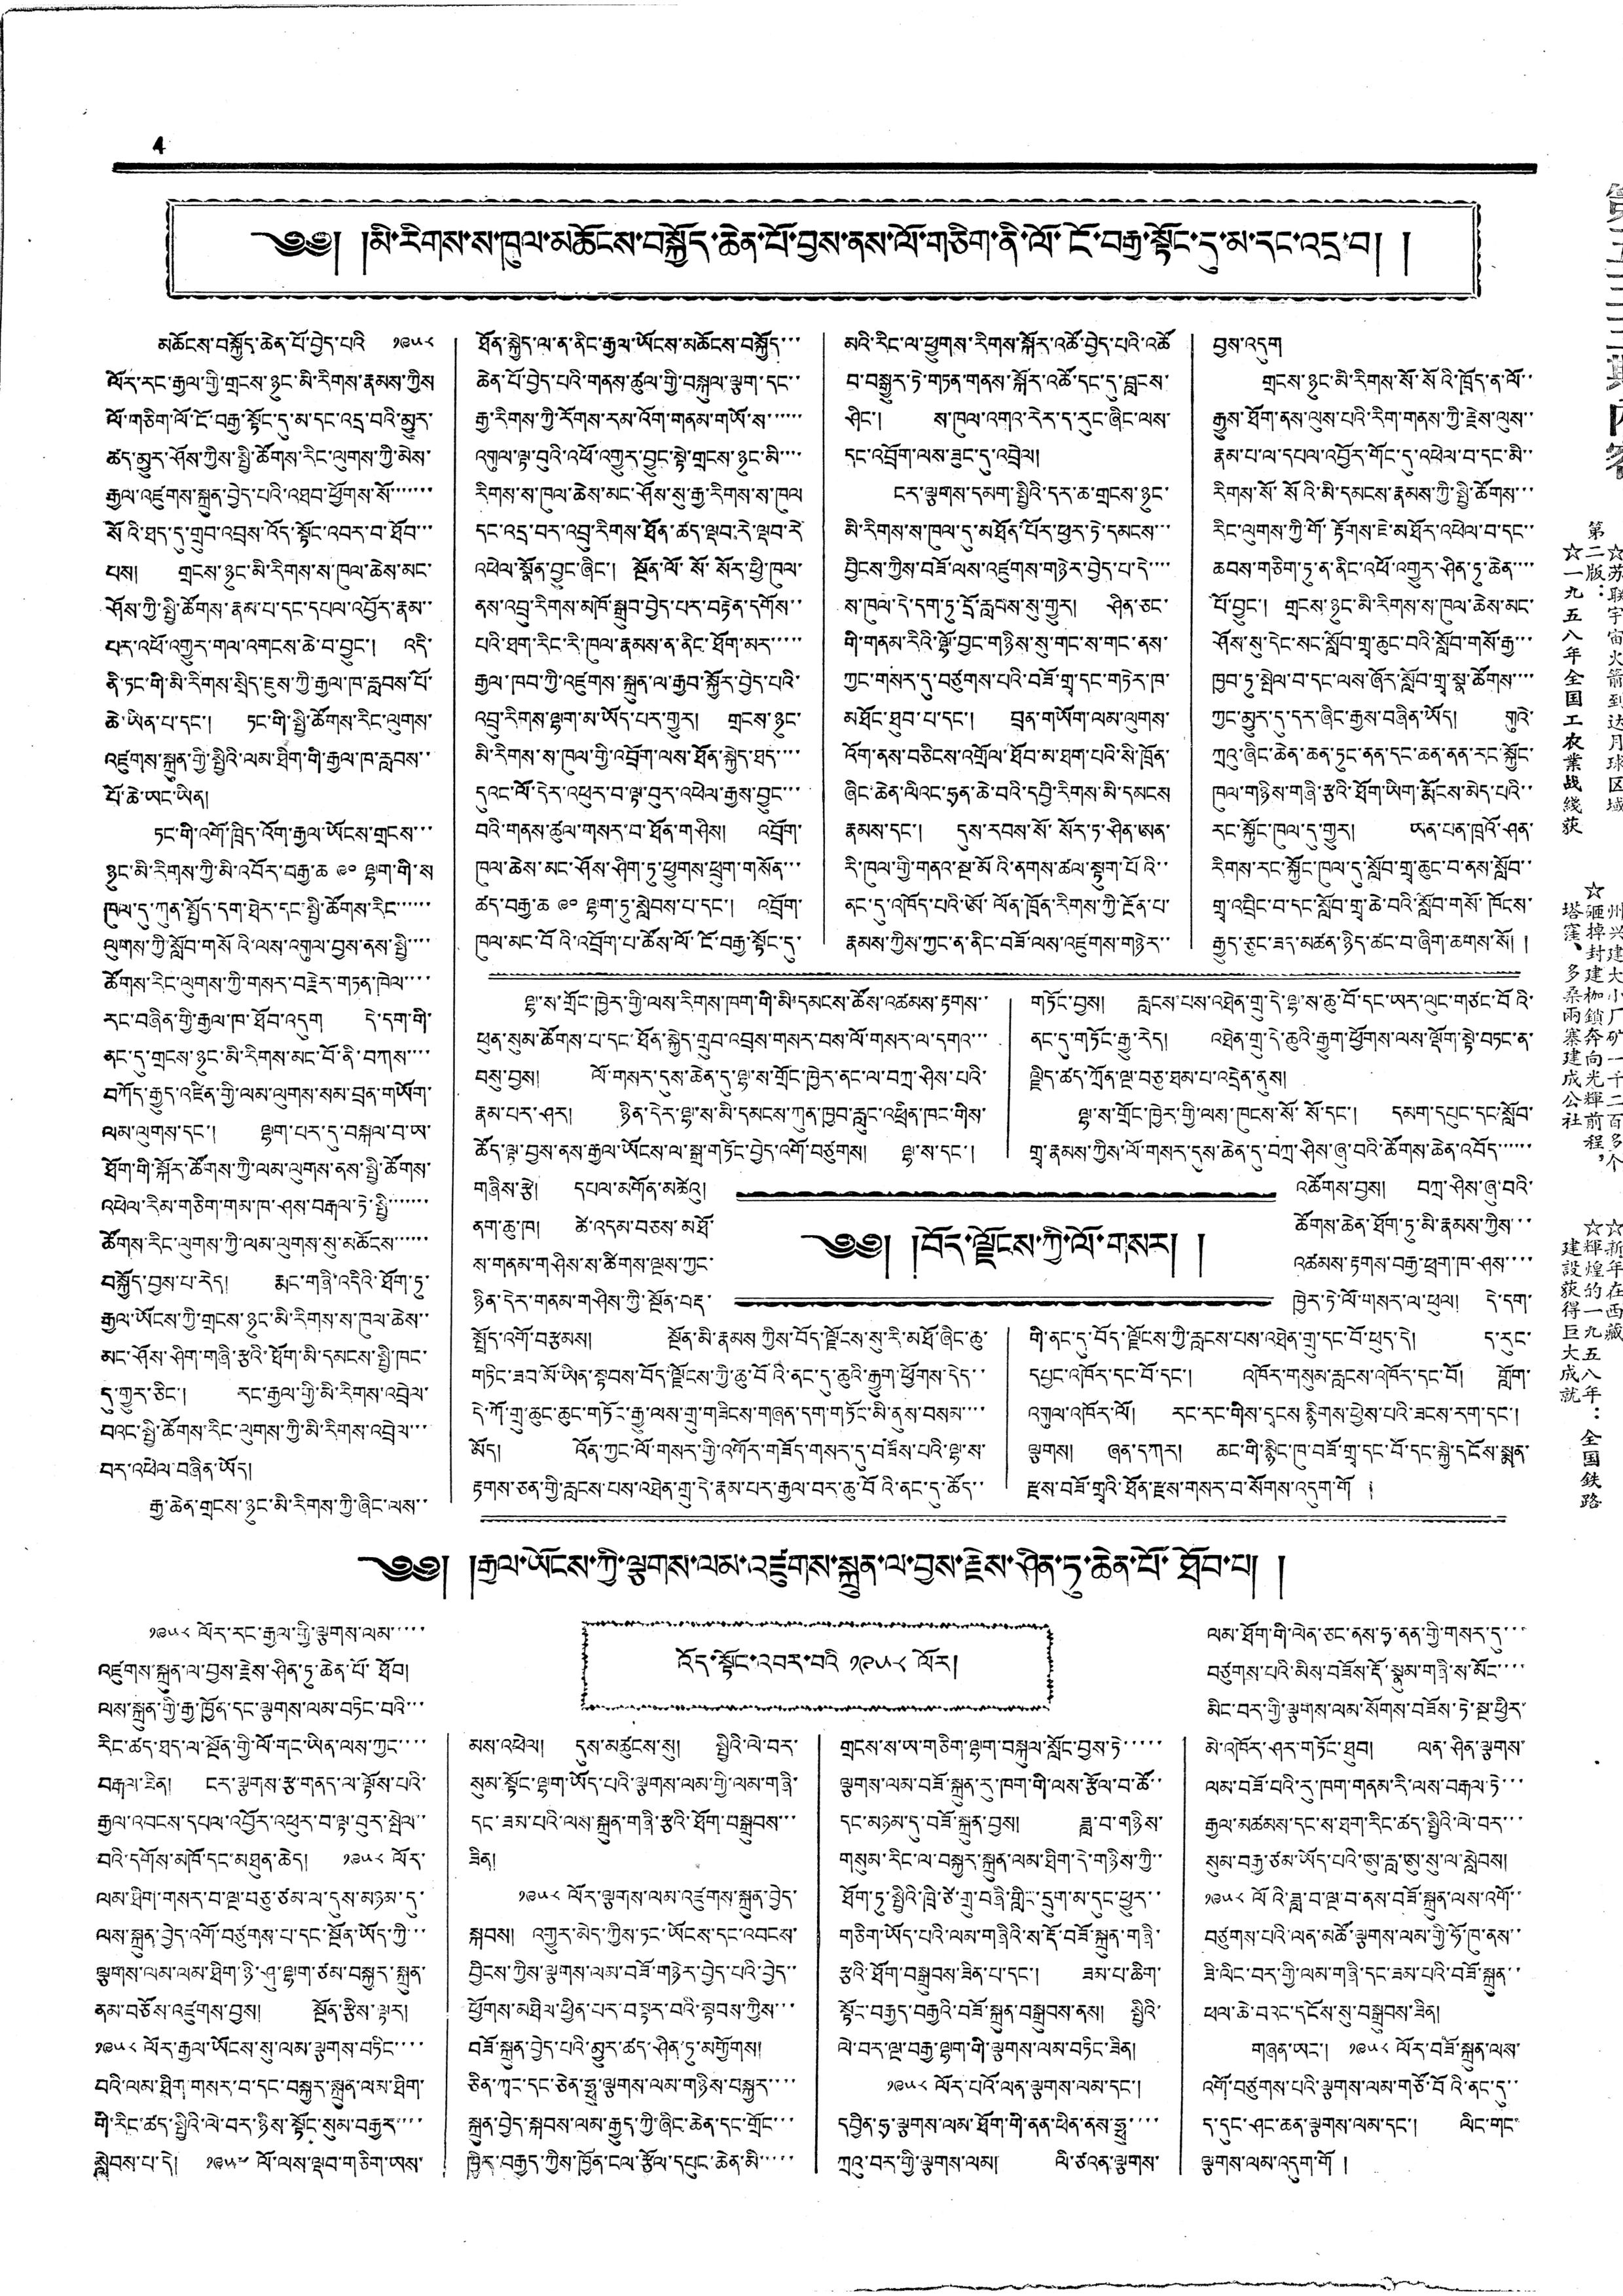4
༄༅། །མི་རིགས་ས་ཁུལ་མཆོངས་བསྐྱོད་ཆེན་པོ་བྱས་ནས་ལོ་གཅིག་ནི་ལོ་ངོ་བརྒྱ་སྟོང་དུ་མ་དང་འདྲ་བ། །
མཆོངས་བསྐྱོད་ཆེན་པོ་བྱེད་པའི ༡༩༥༨
ལོར་རང་རྒྱལ་གྱི་གྲངས་ཉུང་མི་རིགས་རྣམས་ཀྱིས
ལོ་གཅིག་ལོ་ངོ་བརྒྱ་སྟོང་དུ་མ་དང་འདྲ་བའི་མྱུར་
ཚད་མྱུར་ཤོས་ཀྱིས་སྤྱི་ཚོགས་རིང་ལུགས་ཀྱི་མེས་
རྒྱལ་འཛུགས་སྐྲུན་བྱེད་པའི་འཐབ་ཕྱོགས་སོ་་་་་་་
སོའི་ཐད་དུ་གྲུབ་འབྲས་འོད་སྟོང་འབར་བ་ཐོབ་་་
པས། གྲངས་ཉུང་མི་རིགས་ས་ཁུལ་ཆེས་མང་
ཤོས་ཀྱི་སྤྱི་ཚོགས་རྣམ་པ་དང་དཔལ་འབྱོར་རྣམ་་
པར་འཕོ་འགྱུར་གལ་འགངས་ཆེ་བ་བྱུང་། འདི་
ནི་ཏང་གི་མི་རིགས་སྲིད་ཇུས་ཀྱི་རྒྱལ་ཁ་རླབས་པོ་
ཆེ་ཡིན་པ་དང་། ཏང་གི་སྤྱི་ཚོགས་རིང་ལུགས་
འཛུགས་སྐྲུན་གྱི་སྤྱིའི་ལམ་ཐིག་གི་རྒྱལ་ཁ་རླབས་་
པོ་ཆེ་ཡང་ཡིན།
ཏང་གི་འགོ་ཁྲིད་འོག་རྒྱལ་ཡོངས་གྲངས་་་
ཉུང་མི་རིགས་ཀྱི་མི་འབོར་བརྒྱ་ཆ ༩༠ ལྷག་གི་ས
ཁུལ་དུ་ཀུན་སྤྱོད་དག་ཐེར་དང་སྤྱི་ཚོགས་རིང་་་་་་
ལུགས་ཀྱི་སློབ་གསོའི་ལས་འགུལ་བྱས་ནས་སྤྱི་་་་
ཚོགས་རིང་ལུགས་ཀྱི་གསར་བརྗེར་གཏན་ཁེལ་་་་
རང་བཞིན་གྱི་རྒྱལ་ཁ་ཐོབ་འདུག དེ་དག་གི་
ནང་དུ་གྲངས་ཉུང་མི་རིགས་མང་བོ་ནི་བཀས་་་་
བཀོད་རྒྱུད་འཛིན་གྱི་ལམ་ལུགས་སམ་བྲན་གཡོག་
ལམ་ལུགས་དང་། ལྷག་པར་དུ་བསྐལ་བ་ཡ་
ཐོག་གི་སྐོར་ཚོགས་ཀྱི་ལམ་ལུགས་ནས་སྤྱི་ཚོགས་
འཕེལ་རིམ་གཅིག་གམ་ཁ་ཤས་བརྒལ་ཏེ་སྤྱི་་་་་་་
ཚོགས་རིང་ལུགས་ཀྱི་ལམ་ལུགས་སུ་མཆོངས་་་་་་
བསྐྱོད་བྱས་པ་རེད། རྨང་གཞི་འདིའི་ཐོག་ཏུ་
རྒྱལ་ཡོངས་ཀྱི་གྲངས་ཉུང་མི་རིགས་ས་ཁུལ་ཆེས་་
མང་ཤོས་ཤིག་གཞི་རྩའི་ཐོག་མི་དམངས་སྤྱི་ཁང་
དུ་གྱུར་ཅིང་། རང་རྒྱལ་གྱི་མི་རིགས་འབྲེལ་
བའང་སྤྱི་ཚོགས་རིང་ལུགས་ཀྱི་མི་རིགས་འབྲེལ་་་
བར་འཕེལ་བཞིན་ཡོད།
རྒྱ་ཆེན་གྲགས་ཉུང་མི་རིགས་ཀྱི་ཞིང་ལས་་
ཐོན་སྐྱེད་ལ་ན་ནིང་རྒྱལ་ཡོངས་མཆོངས་བསྐྱོད་་་
ཆེན་པོ་བྱེད་པའི་གནས་ཚུལ་གྱི་བསྐུལ་ལྕག་དང་་
རྒྱ་རིགས་ཀྱི་རོགས་རམ་འོག་གནམ་གཡོ་ས་་་་་་
འགུལ་ལྟ་བུའི་འཕོ་འགྱུར་བྱུང་སྟེ་གྲངས་ཉུང་མི་་་་
རིགས་ས་ཁུལ་ཆེས་མང་ཤོས་སུ་རྒྱ་རིགས་ས་ཁུལ
དང་འདྲ་བར་འབྲུ་རིགས་ཐོན་ཚད་ལྡབ་རེ་ལྡབ་རེ
འཕེལ་སྣོན་བྱུང་ཞིང་། སྔོན་ལོ་སོ་སོར་ཕྱི་ཁུལ་
ནས་འབྲུ་རིགས་མཁོ་སྒྲུབ་བྱེད་པར་བརྟེན་དགོས་་
པའི་ཐག་རིང་རི་ཁུལ་རྣམས་ན་ནིང་ཐོག་མར་་་་་
རྒྱལ་ཁབ་ཀྱི་འཛུགས་སྐྲུན་ལ་རྒྱབ་སྐྱོར་བྱེད་པའི་
འབྲུ་རིགས་ལྷག་མ་ཡོད་པར་གྱུར། གྲངས་ཉུང་
མི་རིགས་ས་ཁུལ་གྱི་འབྲོག་ལས་ཐོན་སྐྱེད་ཐད་་་་
དུའང་ལོ་དེར་འཕུར་བ་ལྟ་བུར་འཕེལ་རྒྱས་བྱུང་་་
བའི་གནས་ཚུལ་གསར་བ་ཐོན་གཤིས། འབྲོག་
ཁུལ་ཆེས་མང་ཤོས་ཤིག་ཏུ་ཕྱུགས་ཕྲུག་གསོན་་་
ཚད་བརྒྱ་ཆ ༩༠ ལྷག་ཏུ་སླེབས་པ་དང་། འབྲོག་
ཁུལ་མང་བོའི་འབྲོག་པ་ཚོས་ལོ་ངོ་བརྒྱ་སྟོང་དུ་
མའི་རིང་ལ་ཕྱུགས་རིགས་སྐོར་འཚོ་བྱེད་པའི་འཚོ
བ་བསྒྱུར་ཏེ་གཏན་གནས་སྐོར་འཚོ་དང་དུ་བླངས་
ཤིང་། ས་ཁུལ་འགའ་རེར་ད་རུང་ཞིང་ལས་
དང་འབྲོག་ལས་ཟུང་དུ་འབྲེལ།
ངར་ལྕགས་དམག་སྤྱིའི་དར་ཆ་གྲངས་ཉུང་
མི་རིགས་ས་ཁུལ་དུ་མཐོན་པོར་ཕྱར་ཏེ་དམངས་་་
བྱིངས་ཀྱིས་བཟོ་ལས་འཛུགས་གཉེར་བྱེད་པ་དེ་་་་
ས་ཁུལ་དེ་དག་ཏུ་དྲོ་རླབས་སུ་གྱུར། ཤིན་ཅང་
གི་གནམ་རིའི་ལྷོ་བྱང་གཉིས་སུ་གང་ས་གང་ནས་
ཀྱང་གསར་དུ་བཙུགས་པའི་བཟོ་གྲྭ་དང་གཏེར་ཁ་
མཐོང་ཐུབ་པ་དང་། བྲན་གཡོག་ལམ་ལུགས་
འོག་ནས་བཅིངས་འགྲོལ་ཐོབ་མ་ཐག་པའི་སི་ཁྲོན་
ཞིང་ཆེན་ལིའང་ཧྲན་ཆེ་བའི་དབྱི་རིགས་མི་དམངས
རྣམས་དང་། དུས་རབས་སོ་སོར་ཏ་ཤིན་ཨན་
རི་ཁུལ་གྱི་གནའ་སྔ་མོའི་ནགས་ཚལ་སྟུག་པོའི་་
ནང་དུ་འཁོད་པའི་ཨོ་ལོན་ཁྲོན་རིགས་ཀྱི་རྔོན་པ་
རྣམས་ཀྱིས་ཀྱང་ན་ནིང་བཟོ་ལས་འཛུགས་གཉེར་་
བྱས་འདུག
གྲངས་ཉུང་མི་རིགས་སོ་སོའི་ཁྲོད་ན་ལོ་་
རྒྱུས་ཐོག་ནས་ལུས་པའི་རིག་གནས་ཀྱི་རྗེས་ལུས་་
རྣམ་པ་ལ་དཔལ་འབྱོར་གོང་དུ་འཕེལ་བ་དང་མི་་
རིགས་སོ་སོའི་མི་དམངས་རྣམས་ཀྱི་སྤྱི་ཚོགས་་་
རིང་ལུགས་ཀྱི་གོ་རྟོགས་ཇེ་མཐོར་འཕེལ་བ་དང་་
ཆབས་གཅིག་ཏུ་ན་ནིང་འཕོ་འགྱུར་ཤིན་ཏུ་ཆེན་་་་
པོ་བྱུང་། གྲངས་ཉུང་མི་རིགས་ས་ཁུལ་ཆེས་མང་
ཤོས་སུ་དེང་སང་སློབ་གྲྭ་ཆུང་བའི་སློབ་གསོ་རྒྱ་་་
ཁྱབ་ཏུ་སྤེལ་བ་དང་ལས་ཞོར་སློབ་གྲྭ་སྣ་ཚོགས་་་་
ཀྱང་མྱུར་དུ་དར་ཞིང་རྒྱས་བཞིན་ཡོད། གུའེ་
ཀྲའུ་ཞིང་ཆེན་ཆན་ཏུང་ནན་དང་ཆན་ནན་རང་སྐྱོང་
ཁུལ་གཉིས་གཞི་རྩའི་ཐོག་ཡིག་རྨོངས་མེད་པའི་་
རང་སྐྱོང་ཁུལ་དུ་གྱུར། ཡན་པན་ཁྲའོ་ཤན་
རིགས་རང་སྐྱོང་ཁུལ་དུ་སློབ་གྲྭ་ཆུང་བ་ནས་སློབ་་
གྲྭ་འབྲིང་བ་དང་སློབ་གྲྭ་ཆེ་བའི་སློབ་གསོ་ཁོངས་
རྒྱུད་ཅུང་ཟད་མཚན་ཉིད་ཚང་བ་ཞིག་ཆགས་སོ། །
༄༅། །བོད་ལྗོངས་ཀྱི་ལོ་གསར། །
ལྷ་ས་གྲོང་ཁྱེར་གྱི་ལས་རིགས་ཁག་གི་མི་དམངས་ཚོས་འཚམས་རྟགས་་
ཕུན་སུམ་ཚོགས་པ་དང་ཐོན་སྐྱེད་གྲུབ་འབྲས་གསར་བས་ལོ་གསར་ལ་དགའ་་་
བསུ་བྱས། ལོ་གསར་དུས་ཆེན་དུ་ལྷ་ས་གྲོང་ཁྱེར་ནང་ལ་བཀྲ་ཤིས་པའི་
རྣམ་པར་ཤར། ཉིན་དེར་ལྷ་ས་མི་དམངས་ཀུན་ཁྱབ་རླུང་འཕྲིན་ཁང་གིས་
ཚོད་ལྟ་བྱས་ནས་རྒྱལ་ཡོངས་ལ་སྒྲ་གཏོང་བྱེད་འགོ་བཙུགས། ལྷ་ས་དང་།
གཞིས་རྩེ། དཔལ་མགོན་མཚེའུ།
ནག་ཆུ་ཁ། ཚེ་འདམ་བཅས་མཐོ་
ས་གནམ་གཤིས་ས་ཚིགས་ལྔས་ཀྱང་
ཉིན་དེར་གནམ་གཤིས་ཀྱི་སྔོན་བརྡ་
སྤྲོད་འགོ་བརྩམས། སྔོན་མི་རྣམས ཀྱིས་བོད་ལྗོངས་སུ་རི་མཐོ་ཞིང་ཆུ་
གཏིང་ཟབ་མོ་ཡིན་སྟབས་བོད་ལྗོངས་ཀྱི་ཆུ་བོའི་ནང་དུ་ཆུའི་རྒྱུག་ཕྱོགས་དེད་་
དེ་ཀོ་གྲུ་ཆུང་ཆུང་གཏོང་རྒྱུ་ལས་གྲུ་གཟིངས་གཞན་དག་གཏོང་མི་ནུས་བསམ་་་་
མོད། འོན་ཀྱང་ལོ་གསར་གྱི་འགོར་གཟོད་གསར་དུ་བཟོས་པའི་ལྷ་ས་
རྟགས་ཅན་གྱི་རླངས་པས་འཐེན་གྲུ་དེ་རྣམ་པར་རྒྱལ་བར་ཆུ་བོའི་ནང་དུ་ཚོད་་
གཏོང་བྱས། རླངས་པས་འཐེན་གྲུ་དེ་ལྷ་ས་ཆུ་བོ་དང་ཡར་ལུང་གཙང་བོའི་
ནང་དུ་གཏོང་རྒྱུ་རེད། འཐེན་གྲུ་དེ་ཆུའི་རྒྱུག་ཕྱོགས་ལས་ལྡོག་སྟེ་བཏང་ན་
ལྗིད་ཚད་ཀྲོན་ལྔ་བཅུ་ཐམ་པ་འདྲེན་ནུས།
ལྷ་ས་གྲོང་ཁྱེར་གྱི་ལས་ཁུངས་སོ་སོ་དང་། དམག་དཔུང་དང་སློབ་
གྲྭ་རྣམས་ཀྱིས་ལོ་གསར་དུས་ཆེན་དུ་བཀྲ་ཤིས་ཞུ་བའི་ཚོགས་ཆེན་འབོད་་་་་་
འཚོགས་བྱས། བཀྲ་ཤིས་ཞུ་བའི་
ཚོགས་ཆེན་ཐོག་ཏུ་མི་རྣམས་ཀྱིས་་་
འཚོམས་རྟགས་བརྒྱ་ཕྲག་ཁ་ཤས་་་་
ཁྱེར་ཏེ་ལོ་གསར་ལ་ཕུལ། དེ་དག་
གི་ནང་དུ་བོད་ལྗོངས་ཀྱི་རླངས་པས་འཐེན་གྲུ་དང་བོ་ཕུད་དེ། ད་རུང་
དཔྱང་འཁོར་དང་བོ་དང་། འཁོར་གསུམ་རླངས་འཁོར་དང་བོ། གློག་
འགུལ་འཁོར་ལོ། རང་རང་གིས་དྭངས སྙིགས་ཕྱེས་པའི་ཟངས་རག་དང་།
ལྕགས། ཞན་དཀར། ཆང་གི་སྙིང་ཁུ་བཟོ་གྲྭ་དང་བོ་དང་སྐྱེ་དངོས་སྨན་
རྫས་བཟོ་གྲྭའི་ཐོན་རྫས་གསར་བ་སོགས་འདུག་གོ །
༄༅། །རྒྱལ་ཡོངས་ཀྱི་ལྕགས་ལམ་འཛུགས་སྐྲུན་ལ་བྱས་རྗེས་ཤིན་ཏུ་ཆེན་པོ་ཐོབ་པ། །
འོད་སྟོང་འབར་བའི ༡༩༥༨ ལོར།
༡༩༥༨ ལོར་རང་རྒྱལ་གྱི་ལྕགས་ལམ་་་་་
འཛུགས་སྐྲུན་ལ་བྱས་རྗེས་ཤིན་ཏུ་ཆེན་པོ་ཐོབ།
ལས་སྐྲུན་གྱི་རྒྱ་ཁྱོན་དང་ལྕགས་ལམ་བཏིང་བའི་་་
རིང་ཚད་ཐད་ལ་སྔོན་གྱི་ལོ་གང་ཡིན་ལས་ཀྱང་་་་
བརྒལ་ཟིན། ངར་ལྕགས་རྩ་གནད་ལ་ལྟོས་པའི་
རྒྱལ་འབངས་དཔལ་འབྱོར་འཕུར་བ་ལྟ་བུར་སྤེལ་་
བའི་དགོས་མཁོ་དང་མཐུན་ཆེད། ༡༩༥༨ ལོར་
ལམ་ཐིག་གསར་བ་ལྔ་བཅུ་ཙམ་ལ་དུས་མཉམ་དུ་
ལས་སྐྲུན་བྱེད་འགོ་བཙུགས་པ་དང་སྔོན་ཡོད་ཀྱི་་་
ལྕགས་ལམ་ལམ་ཐིག་ཉི་ཤུ་ལྷག་ཙམ་བསྐྱར་སྐྲུན་
ནམ་བཅོས་འཛུགས་བྱས། སྔོན་རྩིས་ལྟར།
༡༩༥༨ ལོར་རྒྱལ་ཡོངས་སུ་ལམ་ལྕགས་བཏིང་་་་
བའི་ལམ་ཐིག་གསར་བ་དང་བསྐྱར་སྐྲུན་ལམ་ཐིག་
གི་རིང་ཚད་སྤྱིའི་ལེ་བར་ཉིས་སྟོང་སུམ་བརྒྱར་་་་
སླེབས་པ་དེ། ༡༩༥༧ ལོ་ལས་ལྡབ་གཅིག་ཡས་
མས་འཕེལ། དུས་མཚུངས་སུ། སྤྱིའི་ལེ་བར་
སུམ་སྟོང་ལྷག་ཡོད་པའི་ལྕགས་ལམ་གྱི་ལམ་གཞི་
དང་ཟམ་པའི་ལས་སྐྲུན་གཞི་རྩའི་ཐོག་བསྒྲུབས་་་
ཟིན།
༡༩༥༨ ལོར་ལྕགས་ལམ་འཛུགས་སྐྲུན་བྱེད་
སྐབས། འགྱུར་མེད་ཀྱིས་ཏང་ཡོངས་དང་འབངས་
བྱིངས་ཀྱིས་ལྕགས་ལམ་བཟོ་གཉེར་བྱེད་པའི་བྱེད་་
ཕྱོགས་མཐིལ་ཕྱིན་པར་བསྟར་བའི་སྟབས་ཀྱིས་་་
བཟོ་སྐྲུན་བྱེད་པའི་མྱུར་ཚད་ཤིན་ཏུ་མགྱོགས།
ཅིན་ཀྭང་དང་ཅེན་ཧྥུ་ལྕགས་ལམ་གཉིས་བསྐྱར་་་་
སྐྲུན་བྱེད་སྐབས་ལམ་རྒྱུད་ཀྱི་ཞིང་ཆེན་དང་གྲོང་་་
ཁྱིར་བརྒྱད་ཀྱིས་ཁྱོན་ངལ་རྩོལ་དཔུང་ཆེན་མི་་་་་
གྲངས་ས་ཡ་གཅིག་ལྷག་བསྐུལ་སློང་བྱས་ཏེ་་་་་
ལྕགས་ལམ་བཟོ་སྐྲུན་རུ་ཁག་གི་ལས་རྩོལ་བ་ཚོ་་
དང་མཉམ་དུ་བཟོ་སྐྲུན་བྱས། ཟླ་བ་གཉིས་
གསུམ་རིང་ལ་བསྐྱར་སྐྲུན་ལམ་ཐིག་དེ་གཉིས་ཀྱི་་
ཐོག་ཏུ་སྤྱིའི་ཁྲི་ཙེ་གྲུ་བཞི་གླིང་དྲུག་མ་དུང་ཕྱུར་་
གཅིག་ཡོད་པའི་ལམ་གཞིའི་ས་རྡོ་བཟོ་སྐྲུན་གཞི་
རྩའི་ཐོག་བསྒྲུབས་ཟིན་པ་དང་། ཟམ་པ་ཆིག་
སྟོང་བརྒྱད་བརྒྱའི་བཟོ་སྐྲུན་བསྒྲུབས་ནས། སྤྱིའི་
ལེ་བར་ལྔ་བརྒྱ་ལྷག་གི་ལྕགས་ལམ་བཏིང་ཟིན།
༡༩༥༨ ལོར་པའོ་ལན་ལྕགས་ལམ་དང་།
དབྱིན་ཧྲ་ལྕགས་ལམ་ཐོག་གི་ནན་ཕིན་ནས་ཧྥུ་་་་
ཀྲའུ་བར་གྱི་ལྕགས་ལམ། ལི་ཙའན་ལྕགས་
ལམ་ཐོག་གི་ལེན་ཅང་ནས་ཧྭ་ནན་གྱི་གསར་དུ་་་
བཙུགས་པའི་མིས་བཟོས་རྡོ་སྣུམ་གཞི་ས་མོང་་་་
མིང་བར་གྱི་ལྕགས་ལམ་སོགས་བཟོས་ཏེ་སྔ་ཕྱིར་
མེ་འཁོར་ཤར་གཏོང་ཐུབ། ལན་ཤིན་ལྕགས་
ལམ་བཟོ་པའི་རུ་ཁག་གནམ་རི་ལས་བརྒལ་ཏེ་་་
རྒྱལ་མཚམས་དང་ས་ཐག་རིང་ཚད་སྤྱིའི་ལེ་བར་་་
སུམ་བརྒྱ་ཙམ་ཡོད་པའི་ཨུ་རླ་ཨུ་སུ་ལ་སླེབས།
༡༩༥༨ ལོའི་ཟླ་བ་ལྔ་བ་ནས་བཟོ་སྐྲུན་ལས་འགོ་་
བཙུགས་པའི་ལན་མཚོ་ལྕགས་ལམ་གྱི་ཧོ་ཁུ་ནས་་
ཟི་ལིང་བར་གྱི་ལམ་གཞི་དང་ཟམ་པའི་བཟོ་སྐྲུན་་
ཕལ་ཆེ་བའང་དངོས་སུ་བསྒྲུབས་ཟིན།
གཞན་ཡང་། ༡༩༥༨ ལོར་བཟོ་སྐྲུན་ལས་
འགོ་བཙུགས་པའི་ལྕགས་ལམ་གཙོ་བོའི་ནང་དུ་་
ད་དུང་ཤང་ཆན་ལྕགས་ལམ་དང་། ལིང་གང་
ལྕགས་ལམ་འདུག་གོ །
第五三三期內容
☆苏联宇宙火箭到达月球区域
第二版：
☆一九五八年全国工农業战綫获
州兴建大小厂矿一千二百多个
☆砸掉封建枷鎖奔向光輝前程，
塔窪、多桑兩寨建成公社
☆新年在西藏
☆輝煌的一九五八年：全国鉄路
建設获得巨大成就
